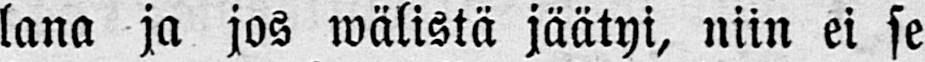lana ja jos wälistä jäätyi, niin ei se
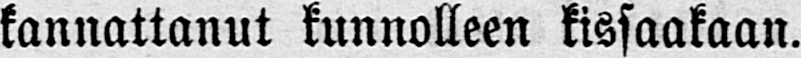kannattanut kunnolleen kissaakaan.
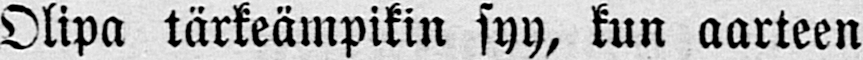Olipa tärkeämpikin syy, kun aarteen
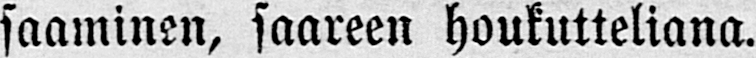saaminen, saareen houkutteliana.
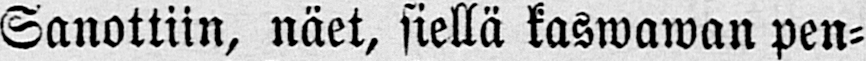Sanottiin, näet, siellä kaswawan pen-
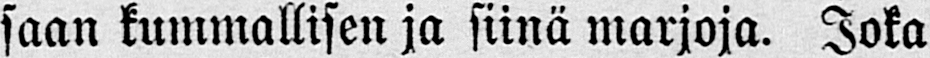saan kummallisen ja siinä marjoja. Joka
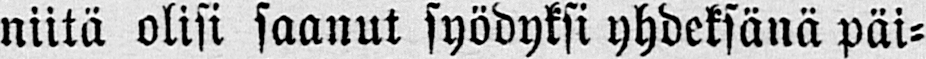niitä olisi saanut syödyksi yhdeksänä päi-
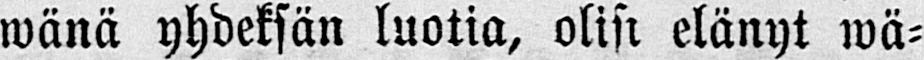wänä yhdeksän luotia, olisi elänyt wä-
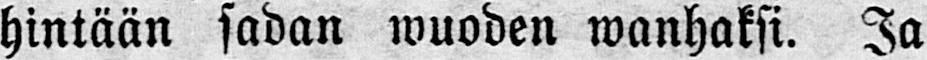hintään sadan wuoden wanhaksi. Ja
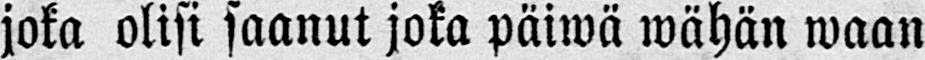joka olisi saanut joka päiwä wähän waan
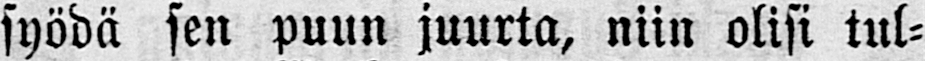syödä sen puun juurta, niin olisi tul-
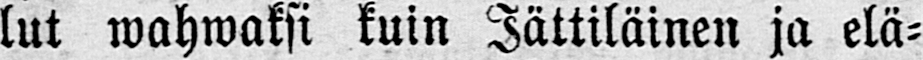lut wahwaksi kuin Jättiläinen ja elä-
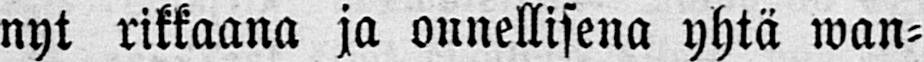nyt rikkaana ja onnellisena yhtä wan-
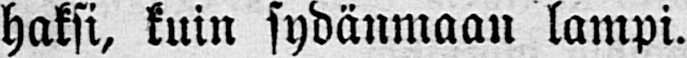haksi, kuin sydänmaan lampi.
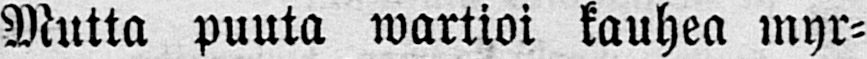Mutta puuta wartioi kauhea myr-
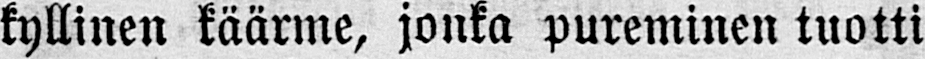kyllinen käärme, jonka pureminen tuotti
